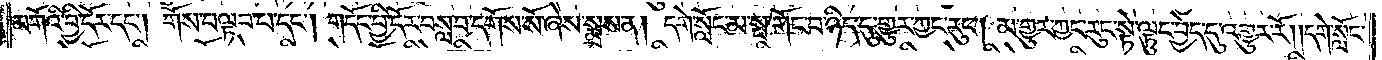མགོའི་བྱི་དོར་དང༌། གོས་བལྟབ་པ་དང༌། གདོང་བྱི་དོར་བསླབ་དགོས་སོ་ཞེས་སྨྲས་ན། དགེ་སློང་མ་སྤ་གོང་བ་ཉིད་དུ་གྱུར་ཀྱང་རུང༌། མ་གྱུར་ཀྱང་རུང་སྟེ་ལྟུང་བྱེད་དུ་འགྱུར་རོ། །དགེ་སློང་
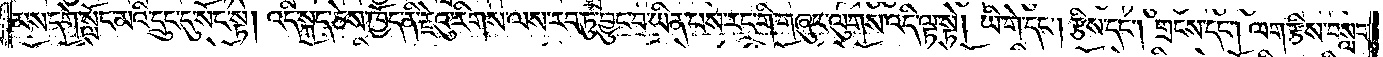མས་དགེ་སློང་མའི་དྲུང་དུ་སོང་སྟེ། འདི་སྐད་ཅེས་ཁྱོད་ནི་རྗེའུ་རིགས་ལས་རབ་ཏུ་བྱུང་བ་ཡིན་པས་རང་གི་གཞུང་ལུགས་འདི་ལྟ་སྟེ། ཡི་གེ་དང༌། རྩིས་དང༌། གྲངས་དང༌། ལག་རྩིས་བསླབ་
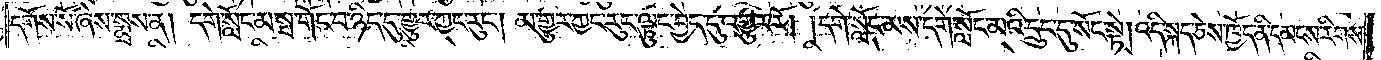དགོས་སོ་ཞེས་སྨྲས་ན། དགེ་སློང་མ་སྤ་གོང་བ་ཉིད་དུ་གྱུར་ཀྱང་རུང༌། མ་གྱུར་ཀྱང་རུང་ལྟུང་བྱེད་དུ་འགྱུར་རོ། །དགེ་སློང་མས་དགེ་སློང་མའི་དྲུང་དུ་སོང་སྟེ། འདི་སྐད་ཅེས་ཁྱོད་ནི་དམངས་རིགས་
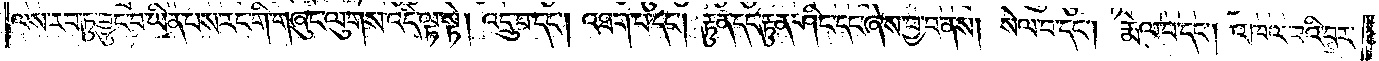ལས་རབ་ཏུ་བྱུང་བ་ཡིན་པས་རང་གི་གཞུང་ལུགས་འདི་ལྟ་སྟེ། འདྲུ་བ་དང༌། འཐག་པ་དང༌། རྟུན་དང་རྟུན་ཤིང་དང་ཞེས་བྱ་བ་ནས། སེལ་བ་དང༌། རྨེལ་བ་དང༌། འཁལ་བའི་བར་
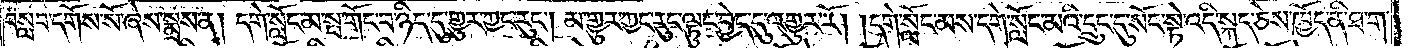བསླབ་དགོས་སོ་ཞེས་སྨྲས་ན། དགེ་སློང་མ་སྤ་གོང་བ་ཉིད་དུ་གྱུར་ཀྱང་རུང༌། མ་གྱུར་ཀྱང་རུང་ལྟུང་བྱེད་དུ་འགྱུར་རོ། །དགེ་སློང་མས་དགེ་སློང་མའི་དྲུང་དུ་སོང་སྟེ་འདི་སྐད་ཅེས་ཁྱོད་ནི་ཐ་ག་
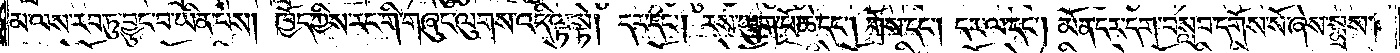མ་ལས་རབ་ཏུ་བྱུང་བ་ཡིན་པས། ཁྱོད་ཀྱིས་རང་གི་གཞུང་ལུགས་འདི་ལྟ་སྟེ། དར་དང༌། རས་ཡུག་པོ་ཆེ་དང༌། གོས་དང༌། དར་ལ་དང༌། མོན་དར་དག་བསླབ་དགོས་སོ་ཞེས་སྨྲས་
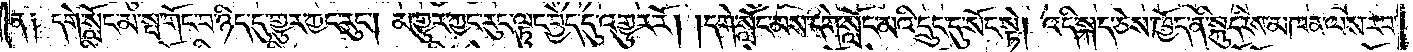ན༑ དགེ་སློང་མ་སྤ་གོང་བ་ཉིད་དུ་གྱུར་ཀྱང་རུང༌། མ་གྱུར་ཀྱང་རུང་ལྟུང་བྱེད་དུ་འགྱུར་རོ། །དགེ་སློང་མས་དགེ་སློང་མའི་དྲུང་དུ་སོང་སྟེ། འདི་སྐད་ཅེས་ཁྱོད་ནི་སྐུད་རིས་མཁན་ལས་རབ་
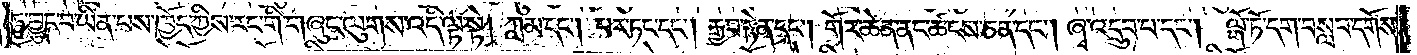ཏུ་བྱུང་བ་ཡིན་པས་ཁྱོད་ཀྱིས་རང་གི་གཞུང་ལུགས་འདི་ལྟ་སྟེ། ཀླམ་དང༌། པར་ཏང་དང༌། རྒྱབ་རྟེན་དང༌། གོར་ཆེན་ནང་ཚངས་ཅན་དང༌། ཞྭ་འདྲུབ་པ་དང༌། ལྒོ་ཏོ་དག་བསླབ་དགོས་
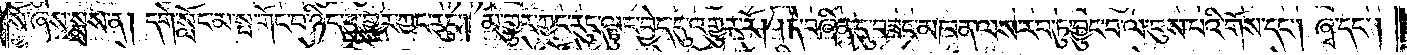སོ་ཞེས་སྨྲས་ན། དགེ་སློང་མ་སྤ་གོང་བ་ཉིད་དུ་གྱུར་ཀྱང་རུང༌། མ་གྱུར་ཀྱང་རུང་ལྟུང་བྱེད་དུ་འགྱུར་རོ། །དེ་བཞིན་དུ་བཟང་མཁན་ལས་རབ་ཏུ་བྱུང་བ་ལ་བུས་པའི་གོས་དང༌། ཞྭ་དང༌།
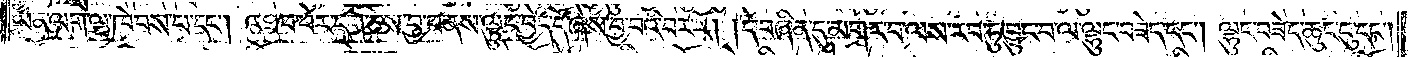ཡན་ལག་ལྔ་ཁེབས་པ་དང༌། འཐབ་བེར་དག་ཅེས་བྱ་བ་ནས་ལྟུང་བྱེད་དོ་ཞེས་བྱ་བའི་བར་རོ། །དེ་བཞིན་དུ་མགར་བ་ལས་རབ་ཏུ་བྱུང་བ་ལ་ལྷུང་བཟེད་དང༌། ལྷུང་བཟེད་ཆུང་ངུ་དང༌།
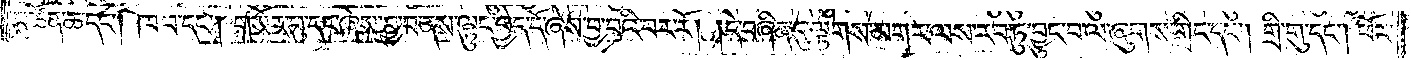མཚོན་ཆ་དང༌། ཁབ་དང༌། གསོར་བུ་དང་ཞེས་བྱ་བ་ནས་ལྟུང་བྱེད་དོ་ཞེས་བྱ་བའི་བར་རོ། །དེ་བཞིན་དུ་ལྕགས་མགར་ལས་རབ་ཏུ་བྱུང་བ་ལ་ཞུགས་གླིང་དང༌། གྲི་གུ་དང༌། ཕོར་
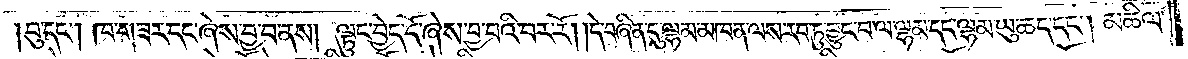བུ་དང༌། ཁ་གཟར་དང་ཞེས་བྱ་བ་ནས། ལྟུང་བྱེད་དོ་ཞེས་བྱ་བའི་བར་རོ། །དེ་བཞིན་དུ་ལྷམ་མཁན་ལས་རབ་ཏུ་བྱུང་བ་ལ་ལྷམ་དང་ལྷམ་ཡུ་ཆད་དང༌། མཆིལ་
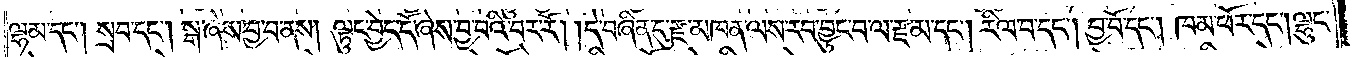ལྷམ་དང༌། སྲབ་དང༌། སྒ་ཞེས་བྱ་བ་ནས། ལྟུང་བྱེད་དོ་ཞེས་བྱ་བའི་བར་རོ། །དེ་བཞིན་དུ་རྫ་མཁན་ལས་རབ་བྱུང་བ་ལ་རྫ་མ་དང༌། རིལ་བ་དང༌། བྱ་བོ་དང༌། ཁམ་ཕོར་དང༌། ལྷུང་
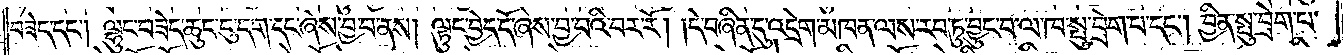བཟེད་དང༌། ལྷུང་བཟེད་ཆུང་ངུ་དག་དང་ཞེས་བྱ་བ་ནས། ལྟུང་བྱེད་དོ་ཞེས་བྱ་བའི་བར་རོ། །དེ་བཞིན་དུ་འདྲེག་མཁན་ལས་རབ་ཏུ་བྱུང་བ་ལ་ཁ་སྤུ་བྲེག་པ་དང༌། བྱིན་སྤུ་བྲེག་པ་
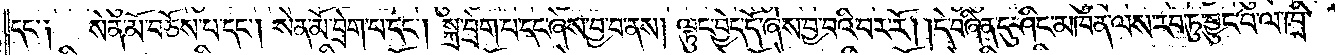དང་༑ སེན་མོ་བཅོས་པ་དང༌། སེན་མོ་བྲེག་པ་དང༌། སྐྲ་བྲག་པ་དང་ཞེས་བྱ་བ་ནས། ལྟུང་བྱེད་དོ་ཞེས་བྱ་བའི་བར་རོ། །དེ་བཞིན་དུ་ཤིང་མཁན་ལས་རབ་ཏུ་བྱུང་བ་ལ་ཁྲི་
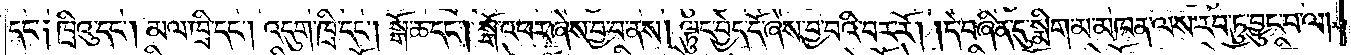དང་༑ ཁྲིའུ་དང༌། མལ་ཁྲི་དང༌། འདུག་ཁྲི་དང༌། སྒོ་ཆ་དང༌། སྒོ་འཕར་ཞེས་བྱ་བ་ནས། ལྟུང་བྱེད་དོ་ཞེས་བྱ་བའི་བར་རོ། །དེ་བཞིན་དུ་སྨིག་མ་མཁན་ལས་རབ་ཏུ་བྱུང་བ་ལ།
